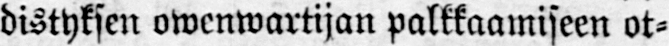distyksen owenwartijan palkkaamiseen ot-
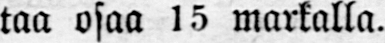taa osaa 15 markalla.
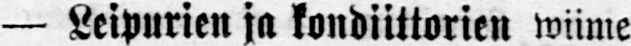— Leipurien ja kondiittorien wiime
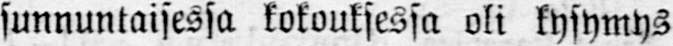sunnuntaisessa kokouksessa oli kysymys
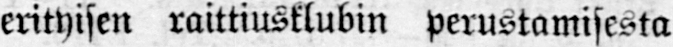erityisen raittiusklubin perustamisesta
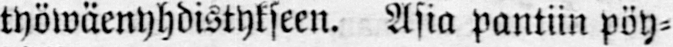työwäenyhdistykseen. Asia pantiin pöy-
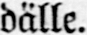dälle.
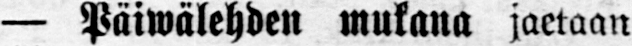— Päiwälehden mukana jaetaan
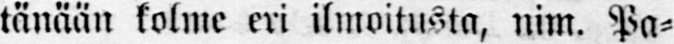tänään kolme eri ilmoitusta, nim. Pa-
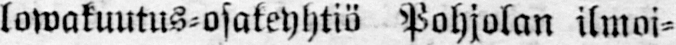lowakuutus-osakeyhtiö Pohjolan ilmoi-
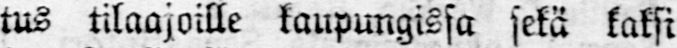tus tilaajoille kaupungissa sekä kaksi
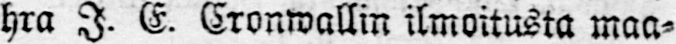hra I. E. Cronwallin ilmoitusta maa-
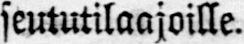seututilaajoille.
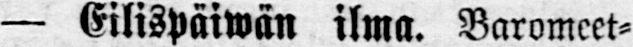— Eilispäiwän ilma. Baromeet-
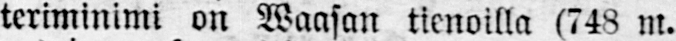teriminimi on Waasan tienoilla (748 m.
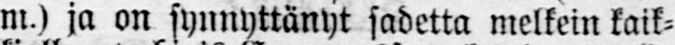m.) ja on synnyttänyt sadetta melkein kaik-
